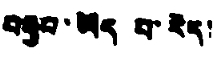བརྒྱབ་ཡོད པ་རེད།
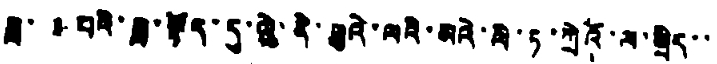ཟླ་ ༣ པའི་ཟླ་སྟོད་དུ་ཝེ་ནེ་ཟུའེ་ལའི་མའེ་ལི་ཏ་ཀྲེའོ་ལ་སྲིད་་
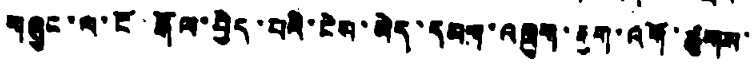གཞུང་ལ་ངོ་རྒོལ་བྱེད་པའི་ངེས་མེད་དམག་འཁྲུག་རྒྱག་འགོ་ཚུགས་
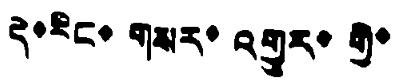དེ་རིང་གསར་འགྱུར་གྱི་
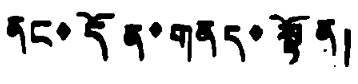ནང་དོན་གནད་སྟོན།
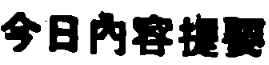今日內容提要
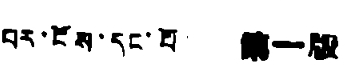པར་ངོས་དང་པོ། 第一版
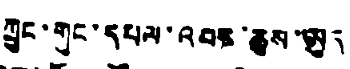ཀྲུང་གུང་དཔལ་འབར་ཆུས་ཨུད
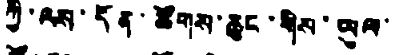ཀྱི་ལས་དོན་ཚོགས་ཆུང་གིས་ཡུལ་
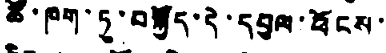ཚོ་ཁག་ཏུ་བསྐྱོད་དེ་དབུལ་ཕོངས་
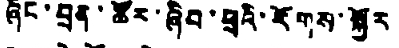ཞིང་བྲན་ཚོར་ཞིབ་ཕྲའི་རོགས་སྐྱོར
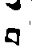བ
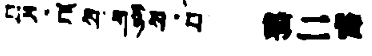པར་ངོས་གཉིས་པ། 第二版
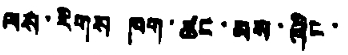ལས་རིགས ཁག་ཚང་མས་ཞིང་
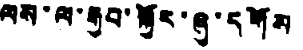ལས་ལ་རྒྱབ་སྐྱོར་ཞུ་དགོས
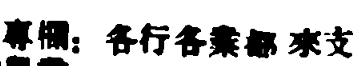專欄：各行各業都來支
